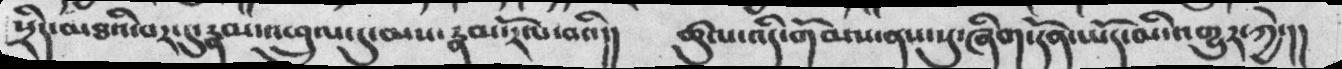སྲིད་མཐའི་བར་དུ་རྣམ་ཕྲུལ་དུ་མས་རྣམ་རོལ་བའི།།  ཚུལ་འདི་གོམས་ནས་སུ་ཞིག་དོན་ཡོད་མི་འགྱུར་ཀྱེ་།།
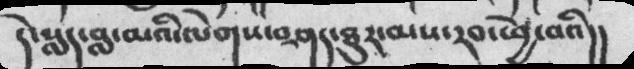དེ་སླད་བླ་མའི་ལེགས་བཤད་ཐུར་མས་རབ་ཕྱེ་བའི།།
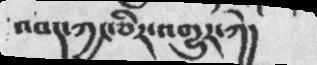འབད་ཀྱང་ཅིར་འགྱུར་ཀེ་།
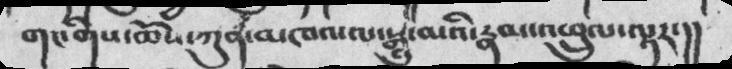གང་གིས་ཆོས་ཀུན་མཁའ་ལ་སྒྱུ་མའི་རྣམ་འཕྲུལ་ལྟར་།།
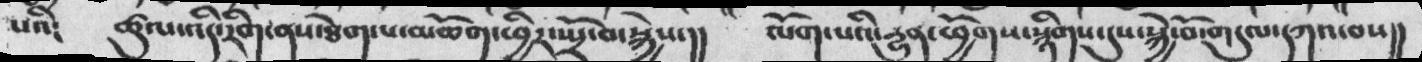པའི༴  ཚུལ་འདི་རིག་ནས་ཐེག་པ་མཆོག་ཕྱིར་སྤྲོ་བ་སྐྱེས་།།  ལོག་པའི་རྱུན་ཕྱོགས་སྙིགས་དུས་སྐྱེ་བོ་གདུལ་དཀའ་བས།།
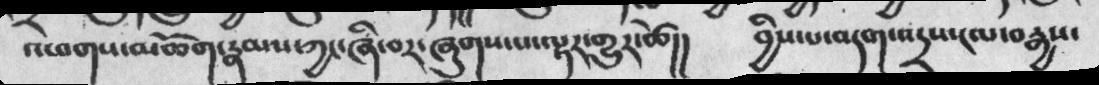འཕགས་མཆོག་རྣམས་ཀྱང་ཞི་བར་ཞུགས་པ་ལྟར་གྱུར་ཚེ།།  བྱིས་པ་བདག་འདྲས་ངལ་བརྒྱས་
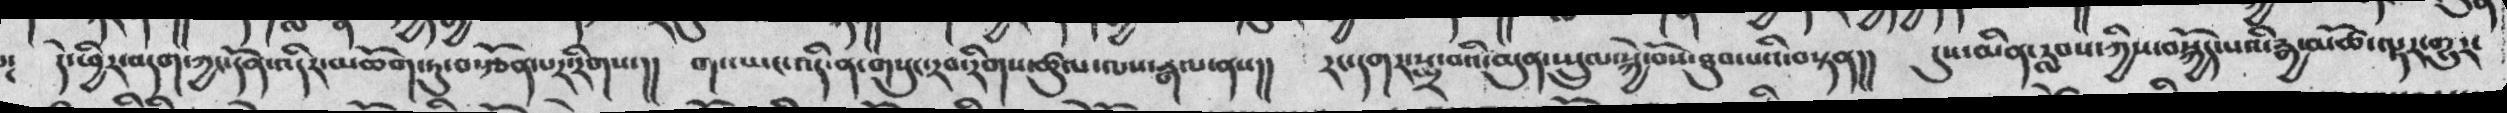དེ་ཕྱིར་བདག་ཀྱང་དོན་འདིར་མཆོག་ཏུ་བརྩོན་པར་རིགས་།།  གང་ཡང་འདི་ན་གསུང་རབ་རིགས་ཚུལ་ལས་རྒལ་ནས།།  རང་དགར་སྨྲ་བའི་མུན་སྤྲུལ་སྐྱེ་བོས་ཐུབ་པའི་བསྟན།།  དུས་མིན་རླབས་ཀྱིས་བསྐྱོད་པའི་རྒྱ་མཚོ་ལྟར་གྱུར་
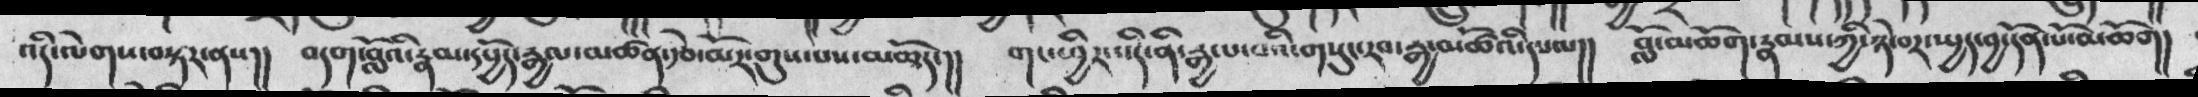འདི་ལེགས་བསྟར་ནས།། བདག་བློའི་རྣམ་དཔྱོད་རྒྱལ་མཚན་རྩེ་མོར་གུས་པས་མཆོད་།།  གང་ཕྱིར་འདི་ནི་རྒྱལ་བའི་གསུང་རབ་རྒྱ་མཚོའི་དཔལ།།  བློ་མཆོག་རྣམས་ཀྱི་ཉེ་བར་སྤྱད་བྱ་དོན་པོ་མཆོག།
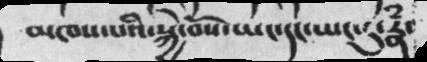མཁས་པའི་སྐྱེ་བོས་ཡང་དང་ཡང་དུ་རྣཾ་
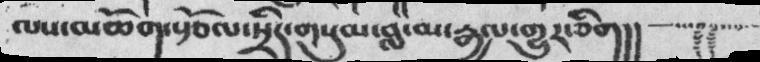ལས་མཆོག་སྩོལ་སྲིད་གསུམ་བླ་མ་རྒྱལ་གྱུར་ཅིག།།
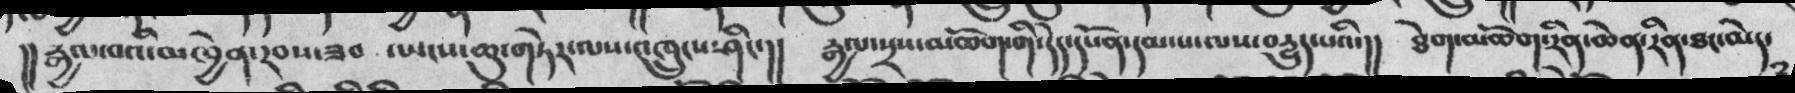།།རྒྱལ་བའི་མཁྱེན་རབས་ཟབ ་ཡངས་ཆུ་གཏེར་ལས་འཁྲུངས་ཤིང་།  རྒྱལ་སྲས་མཆོག་གི་དེད་དཔོན་དམ་པ་ལས་བརྱུད་པའི་།།  ཐེག་མཆོག་རིན་ཆེན་རིན་ཐང་མེད་
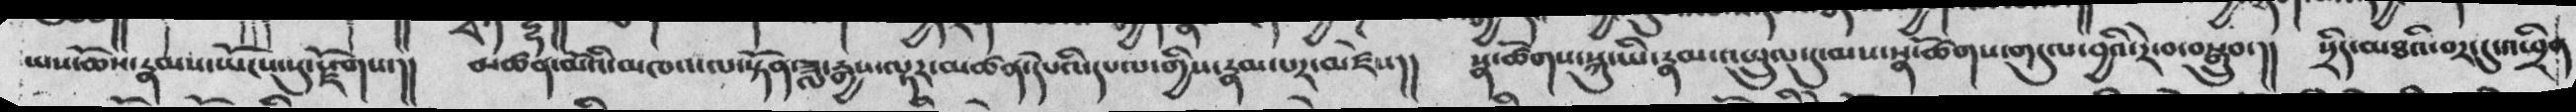ཡས་ཆོས་རྣམས་ཡོངས་སུ་སྫོགས་།།     མཚན་མོའི་མཁའ་ལ་སྟོན་ཟླ་རྒྱས་ལྟར་མཚན་དཔེའི་དཔལ་གྱིས་རྣམ་པར་མཛེས།།     སྣ་ཚོགས་སྐུ་ཡི་རྣམ་འཁྲུལ་དུ་མས་སྣ་ཚོགས་གདུལ་བྱའི་རེ་བ་བསྒྲུབ་།།   སྲིད་མཐའི་བར་དུ་འཕྲིན་
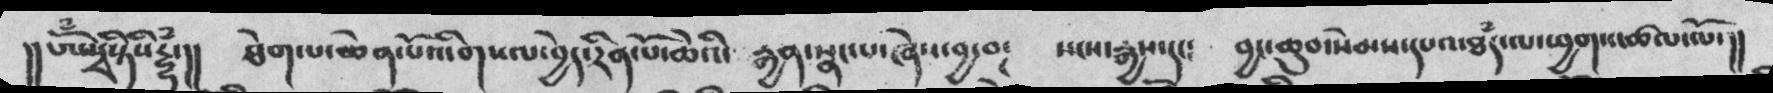།།ཨོཾསྭསྟིསིདྷྷྃ་།།  ཐེག་པ་ཆེན་པོའི་གསལ་བྱེད་རིན་པོ་ཆེའི་ རྒྱན་སྣང་པ་ཞེས་བྱ་བ། སངས་རྒྱས་དང༴ བྱང་ཆུབ་སེམས་དཔའ་ཐཾད་ལ་ཕྱག་འཚལ་ལོ་།།
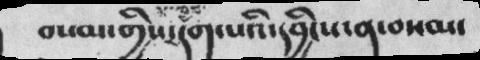བསམ་གྱིས་དག་པའི་དབྱིངས་ན་བསམ་
